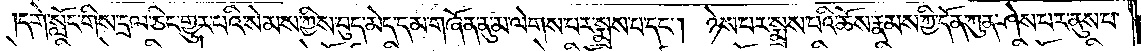།དགེ་སློང་གིས་དྲལ་ཅིང་གྱུར་པའི་སེམས་ཀྱིས་བུད་མེད་དམ་གཞོན་ནུ་མ་ལེགས་པར་སྨྲས་པ་དང༌།<gap>ཉེས་པར་སྨྲས་པའི་ཆོས་རྣམས་ཀྱི་དོན་ཀུན་ཤེས་པར་ནུས་པ་
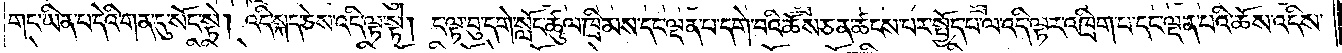གང་ཡིན་པ་དེའི་གན་དུ་སོང་སྟེ། འདི་སྐད་ཅེས་འདི་ལྟ་སྟེ། ང་ལྟ་བུ་དགེ་སློང་ཚུལ་ཁྲིམས་དང་ལྡན་པ་དགེ་བའི་ཆོས་ཅན་ཚངས་པར་སྤྱོད་པ་ལ་འདི་ལྟར་འཁྲིག་པ་དང་ལྡན་པའི་ཆོས་འདིས་
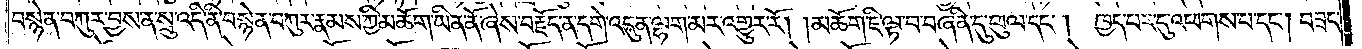བསྙེན་བཀུར་བྱས་ན་སྲུ་འདི་ནི་བསྙེན་བཀུར་རྣམས་ཀྱི་མཆོག་ཡིན་ནོ་ཞེས་བརྗོད་ན་དགེ་འདུན་ལྷག་མར་འགྱུར་རོ། །མཆོག་ཇི་ལྟ་བ་བཞིན་དུ་ཕུལ་དང༌། ཁྱད་པར་དུ་འཕགས་པ་དང༌། བཟང་
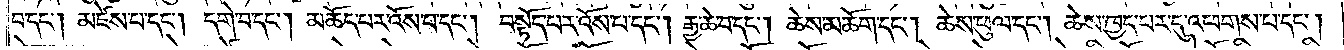བ་དང༌། མཛེས་པ་དང༌། དགེ་བ་དང༌། མཆོད་པར་འོས་པ་དང༌། བསྟོད་པར་འོས་པ་དང༌། རྒྱ་ཆེ་བ་དང༌། ཆེས་མཆོག་དང༌། ཆེས་ཕུལ་དང༌། ཆེས་ཁྱད་པར་དུ་འཕགས་པ་དང༌།
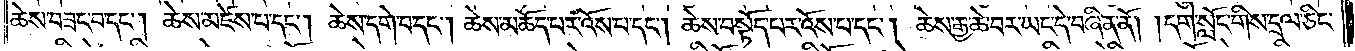ཆེས་བཟང་བ་དང༌། ཆེས་མཛེས་པ་དང༌། ཆེས་དགེ་བ་དང༌། ཆེས་མཆོད་པར་འོས་པ་དང༌། ཆེས་བསྟོད་པར་འོས་པ་དང༌། ཆེས་རྒྱ་ཆེ་བར་ཡང་དེ་བཞིན་ནོ། །དགེ་སློང་གིས་དྲལ་ཅིང་
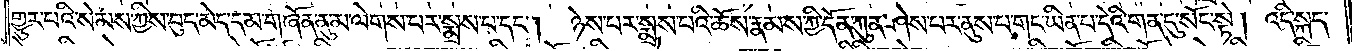གྱུར་པའི་སེམས་ཀྱིས་བུད་མེད་དམ་གཞོན་ནུ་མ་ལེགས་པར་སྨྲས་པ་དང༌།<gap>ཉེས་པར་སྨྲས་པའི་ཆོས་རྣམས་ཀྱི་དོན་ཀུན་ཤེས་པར་ནུས་པ་གང་ཡིན་པ་དེའི་གན་དུ་སོང་སྟེ། འདི་སྐད་
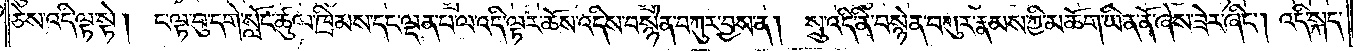ཅེས་འདི་ལྟ་སྟེ།<gap>ང་ལྟ་བུ་དགེ་སློང་ཚུལ་ཁྲིམས་དང་ལྡན་པ་ལ་འདི་ལྟར་ཆོས་འདིས་བསྙེན་བཀུར་བྱས་ན།<gap>སྲུ་འདི་ནི་བསྙེན་བཀུར་རྣམས་ཀྱི་མཆོག་ཡིན་ནོ་ཞེས་ཟེར་ཞིང༌། འདི་སྐད་
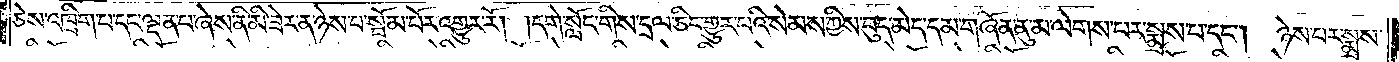ཅེས་འཁྲིག་པ་དང་ལྡན་པ་ཞེས་ནི་མི་ཟེར་ན་ཉེས་པ་སྦོམ་པོར་འགྱུར་རོ། །དགེ་སློང་གིས་དྲལ་ཅིང་གྱུར་པའི་སེམས་ཀྱིས་བུད་མེད་དམ་གཞོན་ནུ་མ་ལེགས་པར་སྨྲས་པ་དང༌།<gap>ཉེས་པར་སྨྲས་
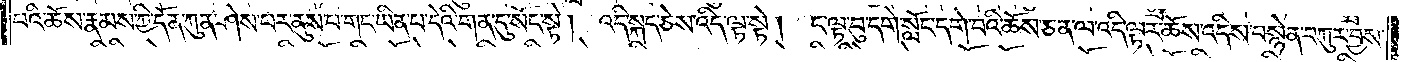པའི་ཆོས་རྣམས་ཀྱི་དོན་ཀུན་ཤེས་པར་ནུས་པ་གང་ཡིན་པ་དེའི་གན་དུ་སོང་སྟེ། འདི་སྐད་ཅེས་འདི་ལྟ་སྟེ། ང་ལྟ་བུ་དགེ་སློང་དགེ་བའི་ཆོས་ཅན་ལ་འདི་ལྟར་ཆོས་འདིས་བསྙེན་བཀུར་བྱས་
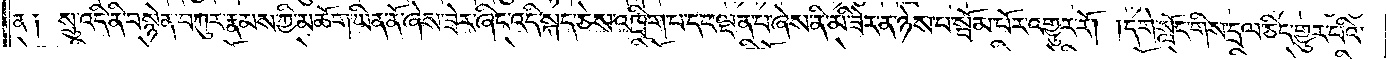ན༑ སྲུ་འདི་ནི་བསྙེན་བཀུར་རྣམས་ཀྱི་མཆོག་ཡིན་ནོ་ཞེས་ཟེར་ཞིང་འདི་སྐད་ཅེས་འཁྲིག་པ་དང་ལྡན་པ་ཞེས་ནི་མི་ཟེར་ན་ཉེས་པ་སྦོམ་པོར་འགྱུར་རོ། །དགེ་སློང་གིས་དྲལ་ཅིང་གྱུར་པའི་
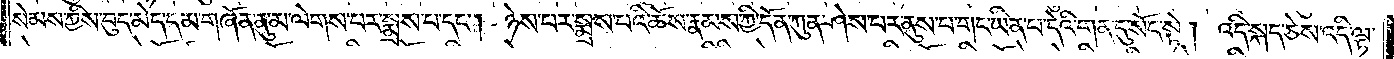སེམས་ཀྱིས་བུད་མེད་དམ་གཞོན་ནུ་མ་ལེགས་པར་སྨྲས་པ་དང༌། ཉེས་པར་སྨྲས་པའི་ཆོས་རྣམས་ཀྱི་དོན་ཀུན་ཤེས་པར་ནུས་པ་གང་ཡིན་པ་དེའི་གན་དུ་སོང་སྟེ། འདི་སྐད་ཅེས་འདི་ལྟ་
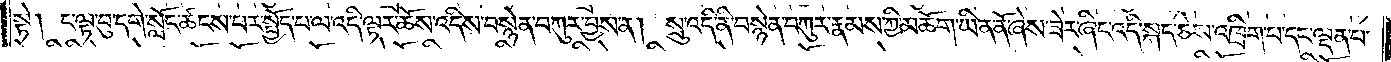སྟེ། ང་ལྟ་བུ་དགེ་སློང་ཚངས་པར་སྤྱོད་པ་ལ་འདི་ལྟར་ཆོས་འདིས་བསྙེན་བཀུར་བྱས་ན། སྲུ་འདི་ནི་བསྙེན་བཀུར་རྣམས་ཀྱི་མཆོག་ཡིན་ནོ་ཞེས་ཟེར་ཞིང་འདི་སྐད་ཅེས་འཁྲིག་པ་དང་ལྡན་པ་
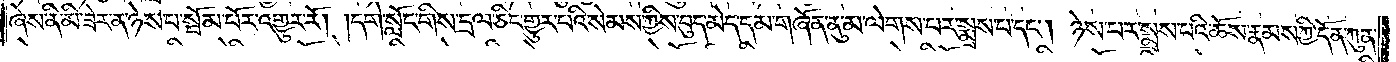ཞེས་ནི་མི་ཟེར་ན་ཉེས་པ་སྦོམ་པོར་འགྱུར་རོ། །དགེ་སློང་གིས་དྲལ་ཅིང་གྱུར་པའི་སེམས་ཀྱིས་བུད་མེད་དམ་གཞོན་ནུ་མ་ལེགས་པར་སྨྲས་པ་དང༌། ཉེས་པར་སྨྲས་པའི་ཆོས་རྣམས་ཀྱི་དོན་ཀུན་
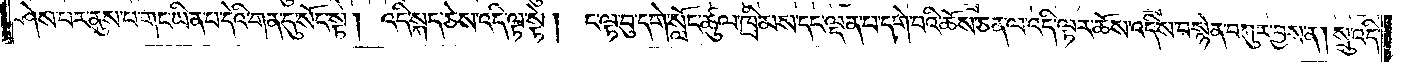ཤེས་པར་ནུས་པ་གང་ཡིན་པ་དེའི་གན་དུ་སོང་སྟེ། འདི་སྐད་ཅེས་འདི་ལྟ་སྟེ། ང་ལྟ་བུ་དགེ་སློང་ཚུལ་ཁྲིམས་དང་ལྡན་པ་དགེ་བའི་ཆོས་ཅན་ལ་འདི་ལྟར་ཆོས་འདིས་བསྙེན་བཀུར་བྱས་ན། སྲུ་འདི་
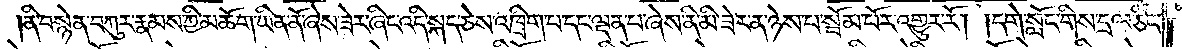ནི་བསྙེན་བཀུར་རྣམས་ཀྱི་མཆོག་ཡིན་ནོ་ཞེས་ཟེར་ཞིང་འདི་སྐད་ཅེས་འཁྲིག་པ་དང་ལྡན་པ་ཞེས་ནི་མི་ཟེར་ན་ཉེས་པ་སྦོམ་པོར་འགྱུར་རོ། །དགེ་སློང་གིས་དྲལ་ཅིང་
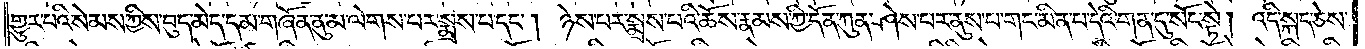གྱུར་པའི་སེམས་ཀྱིས་བུད་མེད་དམ་གཞོན་ནུ་མ་ལེགས་པར་སྨྲས་པ་དང༌། ཉེས་པར་སྨྲས་པའི་ཆོས་རྣམས་ཀྱི་དོན་ཀུན་ཤེས་པར་ནུས་པ་གང་མིན་པ་དེའི་གན་དུ་སོང་སྟེ། འདི་སྐད་ཅེས་
